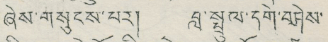ཞེས་གསུངས་པར། བླ་སྤྲུལ་དགེ་བཤེས་
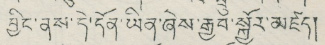བྱིང་ནས་དེ་དོན་ཡིན་ཞེས་རྒྱབ་སྐྱོར་མཛད།
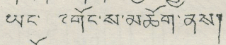ཡང་༸གོང་ས་མཆོག་ནས།
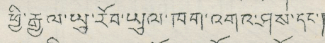ཕྱི་རྒྱལ་ཡུ་རོབ་ཡུལ་ཁག་འགའ་ཤས་དང་།
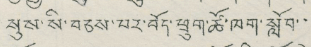སུས་སི་བཅས་པར་བོད་ཕྲུག་ཚོ་ཁག་སློབ་་
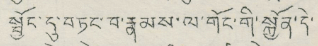སྦྱོང་དུ་བཏང་བ་རྣམས་ལ་གོང་གི་སྐྱོན་དེ་
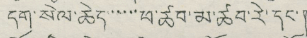དག་སེལ་ཆེད་་་་་ཕ་ཚབ་མ་ཚབ་རེ་དང་།
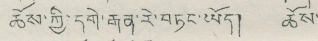ཆོས་ཀྱི་དགེ་རྒན་རེ་བཏང་ཡོད། ཆོས་
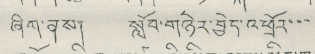ཞིག་ནས། སློབ་གཉེར་བྱེད་འཕྲོར་་་
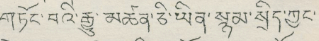གཏོང་བའི་རྒྱུ་མཚན་ཅི་ཡིན་སྙམ་སྲིད་ཀྱང་།
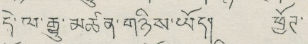དེ་ལ་རྒྱུ་མཚན་གཉིས་ཡོད། ཕྱོཊ་
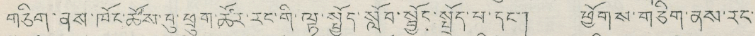གཅིག་ནས་ཁོང་ཚོས་བུ་ཕྲུག་ཚོར་རང་གི་ལྟ་སྤྱོད་སློབ་སྦྱོང་སྤྲོད་པ་དང་། ཕྱོགས་གཅིག་ནས་རང་
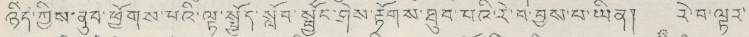ཉིད་ཀྱིས་ནུབ་ཕྱོགས་པའི་ལྟ་སྤྱོད་སློབ་སྦྱང་ཤེས་རྟོགས་ཐུབ་པའི་རེ་བ་བྱས་པ་ཡིན། རེ་བ་ལྟར་
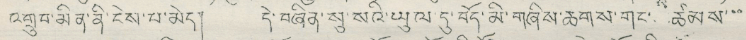འགྲུབ་མིན་ནི་ངེས་པ་མེད། དེ་བཞིན་སུ་སའི་ཡུལ་དུ་བོད་མི་གཞིས་ཆགས་གང་ཚམས་་་
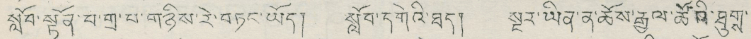སློབ་སྟོན་པ་གྲ་པ་གཉིས་རེ་བཏང་ཡོད། སློབ་དགེའི་ཐད། སྔར་ཡིན་ན་ཆོས་རྒྱལ་ཚོའི་ཐུགྶ་
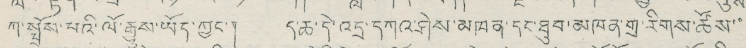ཀ་སྤྲོས་པའི་ལོ་རྒྱུས་ཡོད་ཀྱང་། ད་ཆ་དེ་འདྲ་དཀའ་ཤེས་མཁན་དང་ཐུབ་མཁན་གྲ་རིགས་ཆོས་་
